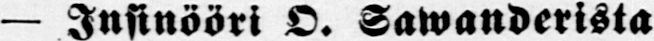—Insinööri O. Sawanderista
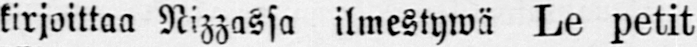kirjoittaa Nizzassa ilmestywä Le petit
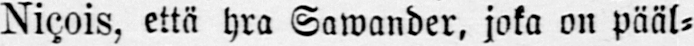Nicois, että hra Sawander, joka on pääl-
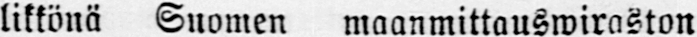likkönä Suomen maanmittauswiraston
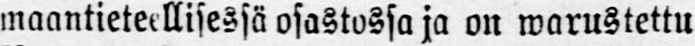maantieteellisessä osastossa ja on warustettu
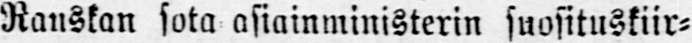Ranskan sota asiainministerin suosituskiir-
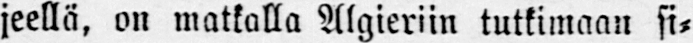jeellä, on matkalla Algieriin tutkimaan si-
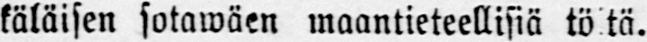käläisen sotawäen maantieteellisiä töitä.
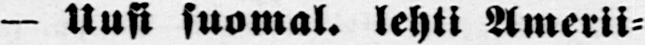— Uusi suomal. lehti Amerii-
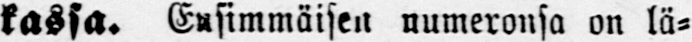kassa. Eusimmäisen numeronsa on lä-
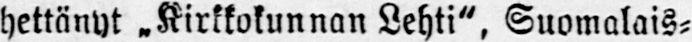hettänyt ˶Kirkkokunnan Lehti", Suomalais-
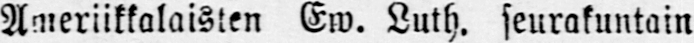Ameriikkalaisten Ew. Luth. seurakuntain
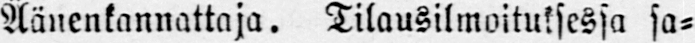Äänenkannattaja. Tilausilmoituksessa sa-
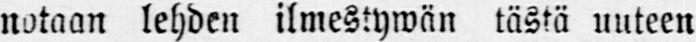notaan lehden ilmestywän tästä uuteen
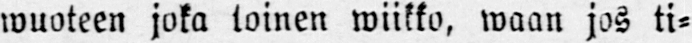wuoteen joka toinen wiikko, waan jos ti-
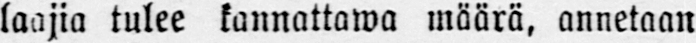laajia tulee kannattawa määrä, annetaan
